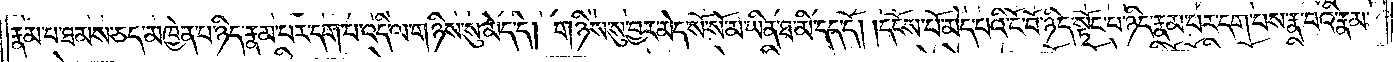རྣམ་པ་ཐམས་ཅད་མཁྱེན་པ་ཉིད་རྣམ་པར་དག་པ་འདི་ལ་གཉིས་སུ་མེད་དེ། གཉིས་སུ་བྱར་མེད་སོ་སོ་མ་ཡིན་ཐ་མི་དད་དོ། །དངོས་པོ་མེད་པའི་ངོ་བོ་ཉིད་སྟོང་པ་ཉིད་རྣམ་པར་དག་པས་རྣ་བའི་རྣམ་
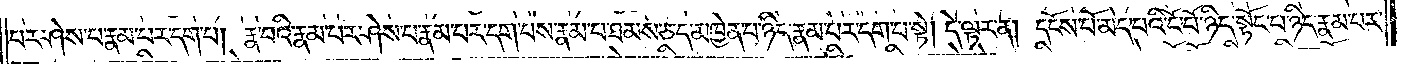པར་ཤེས་པ་རྣམ་པར་དག་པ། རྣ་བའི་རྣམ་པར་ཤེས་པ་རྣམ་པར་དག་པས་རྣམ་པ་ཐམས་ཅད་མཁྱེན་པ་ཉིད་རྣམ་པར་དག་པ་སྟེ། དེ་ལྟར་ན། དངོས་པོ་མེད་པའི་ངོ་བོ་ཉིད་སྟོང་པ་ཉིད་རྣམ་པར་
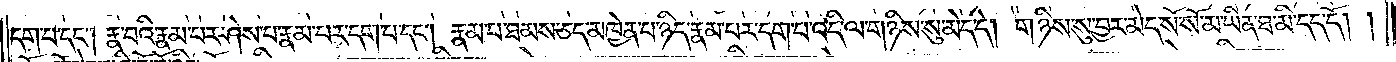དག་པ་དང༌། རྣ་བའི་རྣམ་པར་ཤེས་པ་རྣམ་པར་དག་པ་དང༌། རྣམ་པ་ཐམས་ཅད་མཁྱེན་པ་ཉིད་རྣམ་པར་དག་པ་འདི་ལ་གཉིས་སུ་མེད་དེ། གཉིས་སུ་བྱར་མེད་སོ་སོ་མ་ཡིན་ཐ་མི་དད་དོ། །
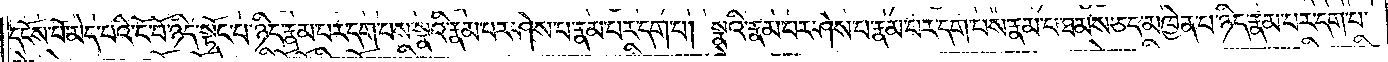དངོས་པོ་མེད་པའི་ངོ་བོ་ཉིད་སྟོང་པ་ཉིད་རྣམ་པར་དག་པས་སྣའི་རྣམ་པར་ཤེས་པ་རྣམ་པར་དག་པ། སྣའི་རྣམ་པར་ཤེས་པ་རྣམ་པར་དག་པས་རྣམ་པ་ཐམས་ཅད་མཁྱེན་པ་ཉིད་རྣམ་པར་དག་པ་
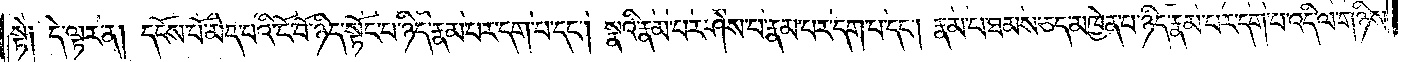སྟེ༑ དེ་ལྟར་ན། དངོས་པོ་མེད་པའི་ངོ་བོ་ཉིད་སྟོང་པ་ཉིད་རྣམ་པར་དག་པ་དང༌། སྣའི་རྣམ་པར་ཤེས་པ་རྣམ་པར་དག་པ་དང༌། རྣམ་པ་ཐམས་ཅད་མཁྱེན་པ་ཉིད་རྣམ་པར་དག་པ་འདི་ལ་གཉིས་
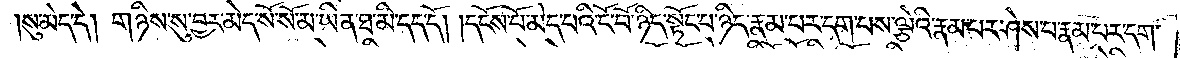སུ་མེད་དེ། གཉིས་སུ་བྱར་མེད་སོ་སོ་མ་ཡིན་ཐ་མི་དད་དོ། །དངོས་པོ་མེད་པའི་ངོ་བོ་ཉིད་སྟོང་པ་ཉིད་རྣམ་པར་དག་པས་ལྕེའི་རྣམ་པར་ཤེས་པ་རྣམ་པར་དག་
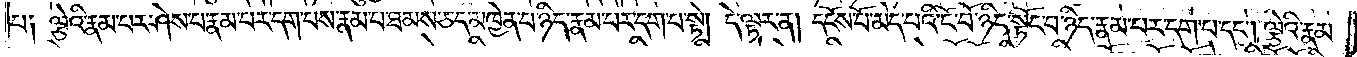པ༑ ལྕེའི་རྣམ་པར་ཤེས་པ་རྣམ་པར་དག་པས་རྣམ་པ་ཐམས་ཅད་མཁྱེན་པ་ཉིད་རྣམ་པར་དག་པ་སྟེ། དེ་ལྟར་ན། དངོས་པོ་མེད་པའི་ངོ་བོ་ཉིད་སྟོང་པ་ཉིད་རྣམ་པར་དག་པ་དང༌། ལྕེའི་རྣམ་
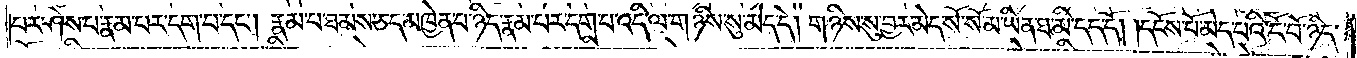པར་ཤེས་པ་རྣམ་པར་དག་པ་དང༌། རྣམ་པ་ཐམས་ཅད་མཁྱེན་པ་ཉིད་རྣམ་པར་དག་པ་འདི་ལ་གཉིས་སུ་མེད་དེ། གཉིས་སུ་བྱར་མེད་སོ་སོ་མ་ཡིན་ཐ་མི་དད་དོ། །དངོས་པོ་མེད་པའི་ངོ་བོ་ཉིད་
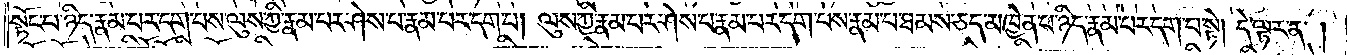སྟོང་པ་ཉིད་རྣམ་པར་དག་པས་ལུས་ཀྱི་རྣམ་པར་ཤེས་པ་རྣམ་པར་དག་པ། ལུས་ཀྱི་རྣམ་པར་ཤེས་པ་རྣམ་པར་དག་པས་རྣམ་པ་ཐམས་ཅད་མཁྱེན་པ་ཉིད་རྣམ་པར་དག་པ་སྟེ། དེ་ལྟར་ན།
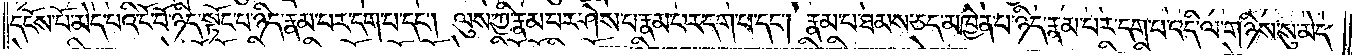དངོས་པོ་མེད་པའི་ངོ་བོ་ཉིད་སྟོང་པ་ཉིད་རྣམ་པར་དག་པ་དང༌། ལུས་ཀྱི་རྣམ་པར་ཤེས་པ་རྣམ་པར་དག་པ་དང༌། རྣམ་པ་ཐམས་ཅད་མཁྱེན་པ་ཉིད་རྣམ་པར་དག་པ་འདི་ལ་གཉིས་སུ་མེད་
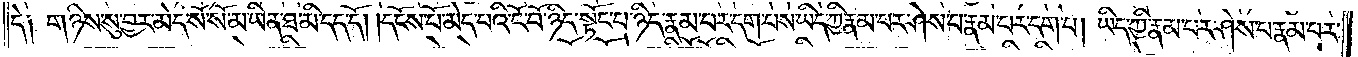དེ༑ གཉིས་སུ་བྱར་མེད་སོ་སོ་མ་ཡིན་ཐ་མི་དད་དོ། །དངོས་པོ་མེད་པའི་ངོ་བོ་ཉིད་སྟོང་པ་ཉིད་རྣམ་པར་དག་པས་ཡིད་ཀྱི་རྣམ་པར་ཤེས་པ་རྣམ་པར་དག་པ། ཡིད་ཀྱི་རྣམ་པར་ཤེས་པ་རྣམ་པར་
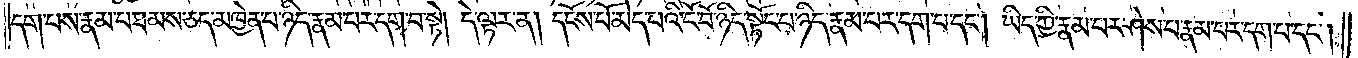དག་པས་རྣམ་པ་ཐམས་ཅད་མཁྱེན་པ་ཉིད་རྣམ་པར་དག་པ་སྟེ། དེ་ལྟར་ན། དངོས་པོ་མེད་པའི་ངོ་བོ་ཉིད་སྟོང་པ་ཉིད་རྣམ་པར་དག་པ་དང༌། ཡིད་ཀྱི་རྣམ་པར་ཤེས་པ་རྣམ་པར་དག་པ་དང༌།
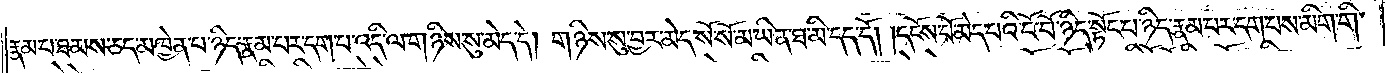རྣམ་པ་ཐམས་ཅད་མཁྱེན་པ་ཉིད་རྣམ་པར་དག་པ་འདི་ལ་གཉིས་སུ་མེད་དེ། གཉིས་སུ་བྱར་མེད་སོ་སོ་མ་ཡིན་ཐ་མི་དད་དོ། །དངོས་པོ་མེད་པའི་ངོ་བོ་ཉིད་སྟོང་པ་ཉིད་རྣམ་པར་དག་པས་མིག་གི་
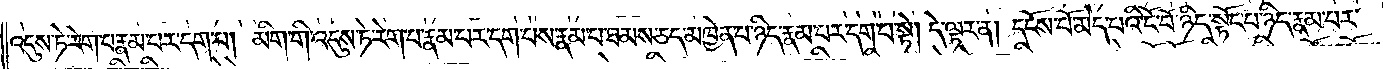འདུས་ཏེ་རེག་པ་རྣམ་པར་དག་པ། མིག་གི་འདུས་ཏེ་རེག་པ་རྣམ་པར་དག་པས་རྣམ་པ་ཐམས་ཅད་མཁྱེན་པ་ཉིད་རྣམ་པར་དག་པ་སྟེ། དེ་ལྟར་ན། དངོས་པོ་མེད་པའི་ངོ་བོ་ཉིད་སྟོང་པ་ཉིད་རྣམ་པར་
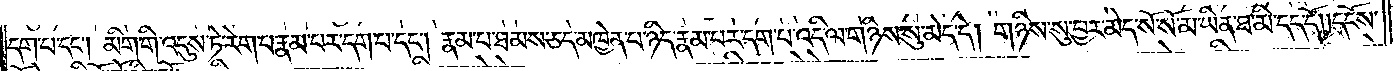དག་པ་དང༌། མིག་གི་འདུས་ཏེ་རེག་པ་རྣམ་པར་དག་པ་དང༌། རྣམ་པ་ཐམས་ཅད་མཁྱེན་པ་ཉིད་རྣམ་པར་དག་པ་འདི་ལ་གཉིས་སུ་མེད་དེ། གཉིས་སུ་བྱར་མེད་སོ་སོ་མ་ཡིན་ཐ་མི་དད་དོ། །དངོས་
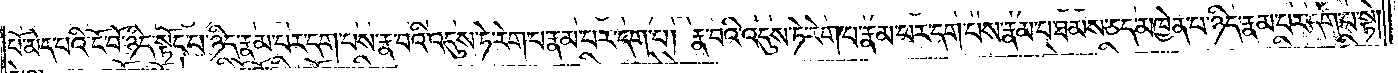པོ་མེད་པའི་ངོ་བོ་ཉིད་སྟོང་པ་ཉིད་རྣམ་པར་དག་པས་རྣ་བའི་འདུས་ཏེ་རེག་པ་རྣམ་པར་དག་པ། རྣ་བའི་འདུས་ཏེ་རེག་པ་རྣམ་པར་དག་པས་རྣམ་པ་ཐམས་ཅད་མཁྱེན་པ་ཉིད་རྣམ་པར་དག་པ་སྟེ།
